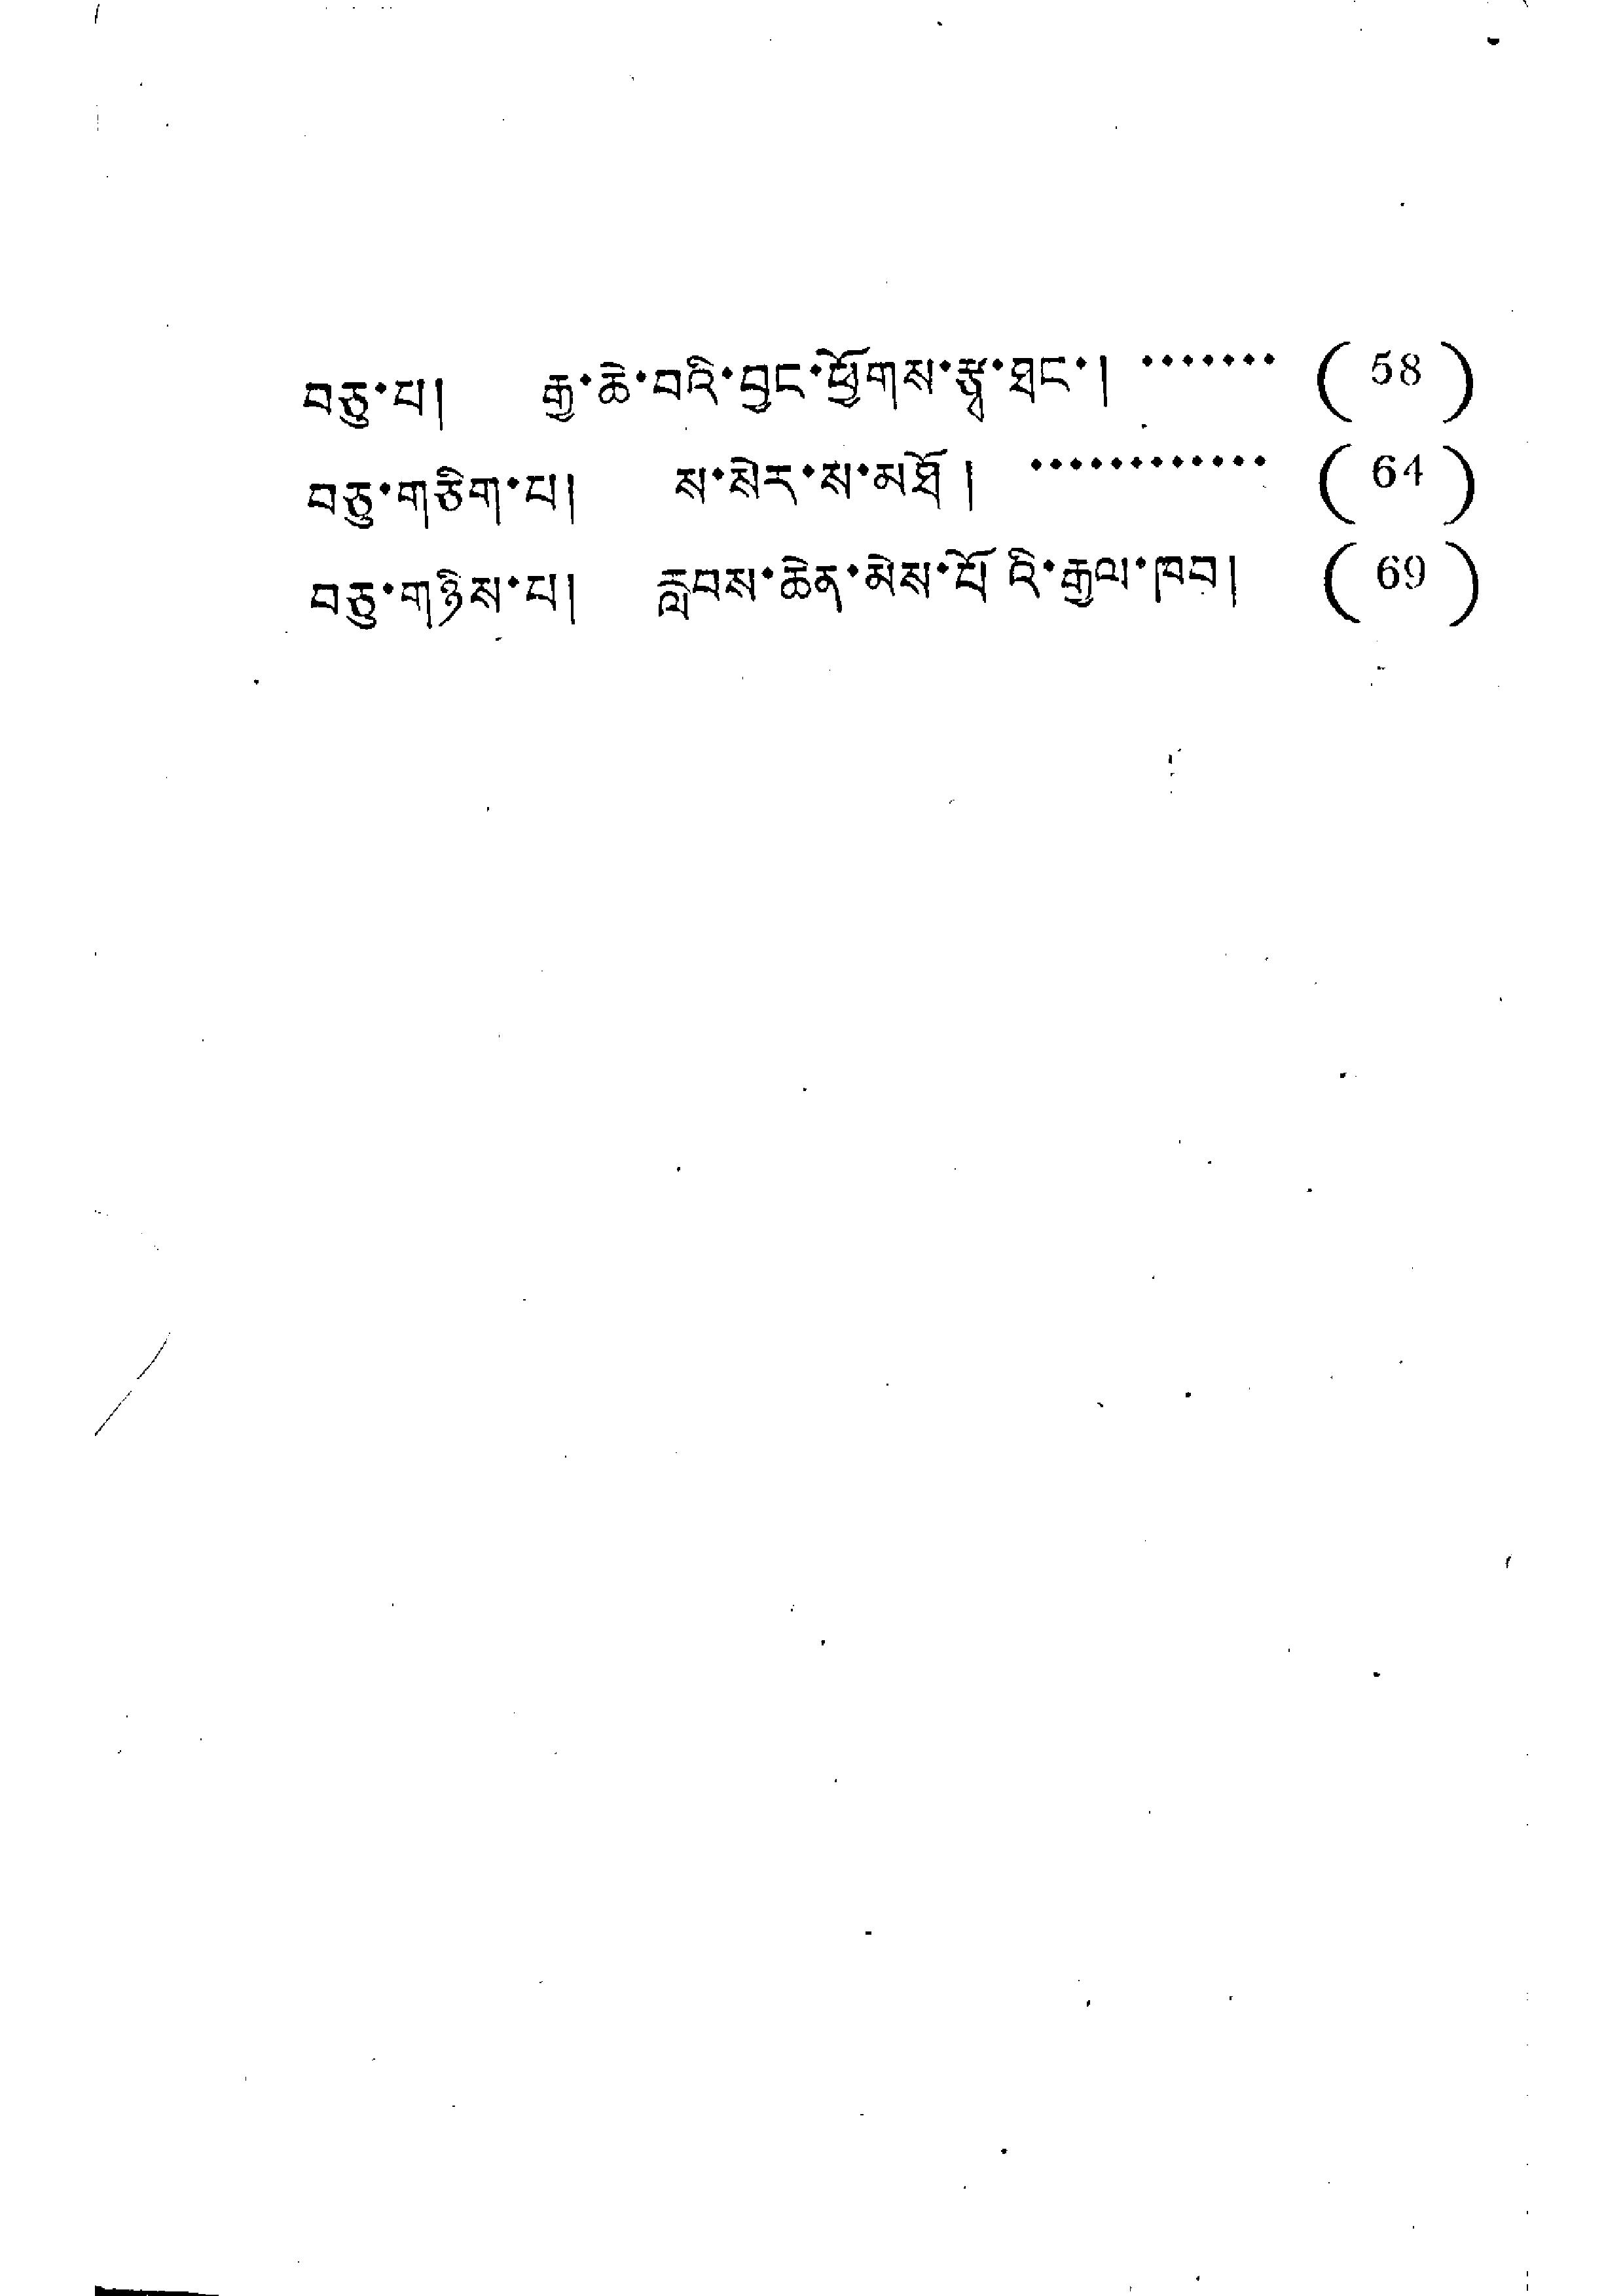བཅུ་པ། རྒྱ་ཆེ་བའི་བྱང་ཕྱོགས་རྩྭ་ཐང་། …… (58)
བཅུ་གཅིག་པ། ས་སེར་ས་མཐོ། ………… (64)
བཅུ་གཉིས་པ། རླབས་ཆེན་མེས་པོའི་རྒྱལ་ཁབ། (69)
